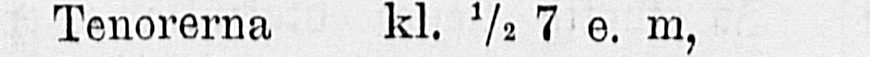SÅNGKÖR
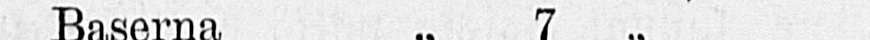Öfning torsdagen den 10 November.
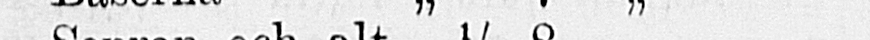Tenorerna Kl. ½ 7 e. m,
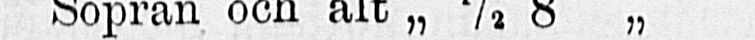Baserna ˶ 7 ˶
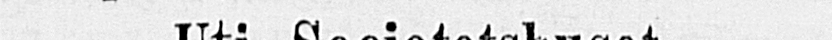Sopran och alt ˶ ½ 8 ˶
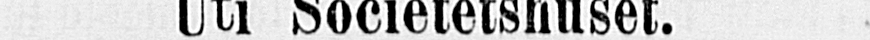Uti Societetshuset.
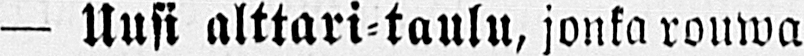— Uusi alttari-taulu, jonka ronwa
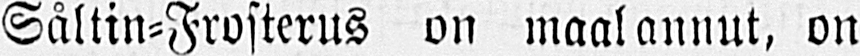Sältin-Frosterus on maalannut, on
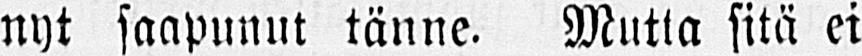nyt saapunut tänne. Mutta sitä ei
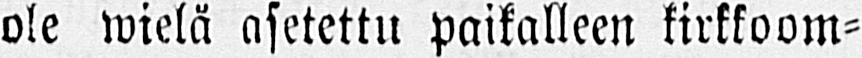ole wielä asetettu paikalleen kirkkoom-
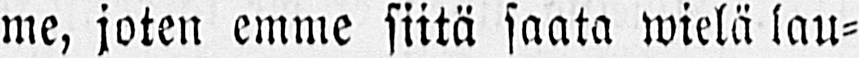me, joten emme siitä saata wielä lau-
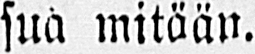sua mitään.
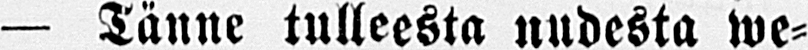— Tänne tulleesta uudesta we-
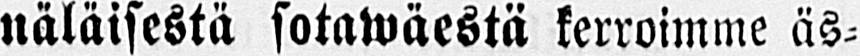n äl ä isesta sotawäestä kerroimme äs-
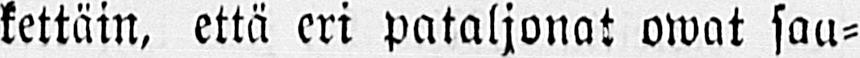kettäin, että eri pataljonat owat saa-
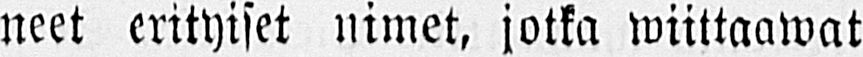neet erityiset nimet, jotka wiittaawat
